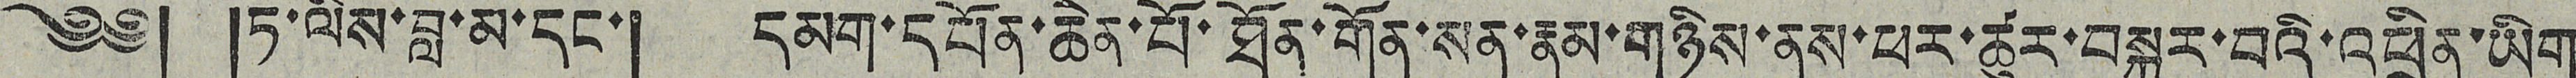༄༅། །ཏ་ལིས་བླ་མ་དང་། དམག་དཔོན་ཆེན་པོ་ཐོན་གོན་སན་རྣམ་གཉིས་ནས་ཕར་ཚུར་བསྐུར་བའི་འཕྲིན་ཡིག
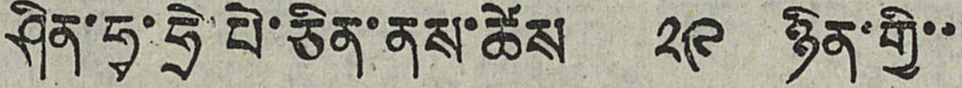ཤིན་ཧྭ་ཧྲེ་པེ་ཅིན་ནས་ཚེས ༢༩ ཉིན་གྱི་་
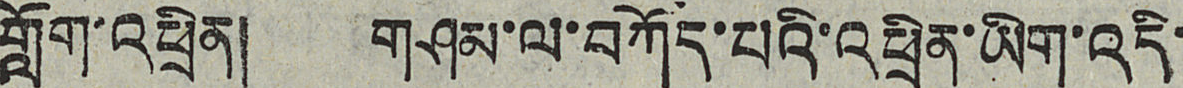གློག་འཕྲིན། གཤམ་ལ་བཀོད་པའི་འཕྲིན་ཡིག་འདི་
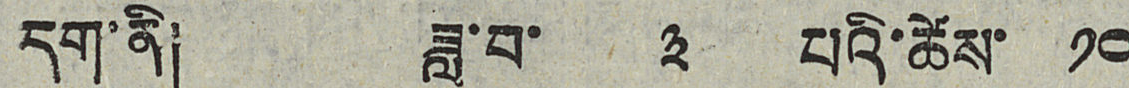དག་ནི། ཟླ་བ་ ༣ པའི་ཚེས་ ༡༠
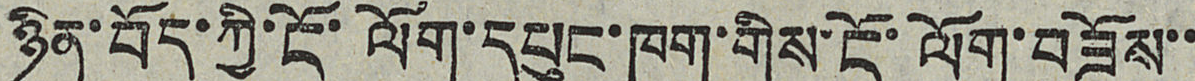ཉིན་བོད་ཀྱི་ལོག་དཔུང་ཁག་གིས་ངོ་ལོག་བཟོས་་
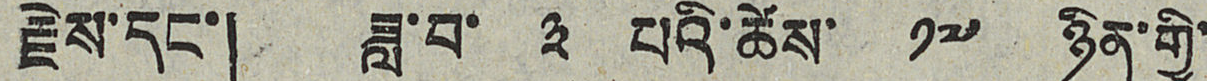རྗེས་དང་། ཟླ་བ་ ༣ པའི་ཚེས་ ༡༧ ཉིན་གྱི་
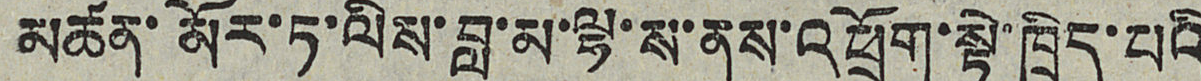མཚན་མོར་ཏ་ལིས་བླ་མ་ལྷ་ས་ནས་འཕྲོག་སྟེ་ཁྲིད་པའི
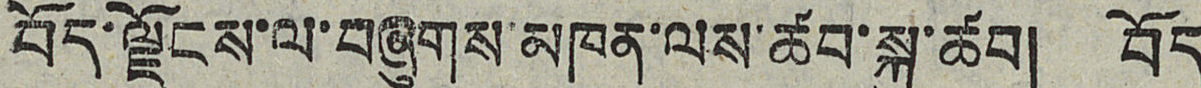བོད་ལྗོངས་ལ་བཞུགས་མཁན་ལས་ཚབ་སྐུ་ཚབ། བོད
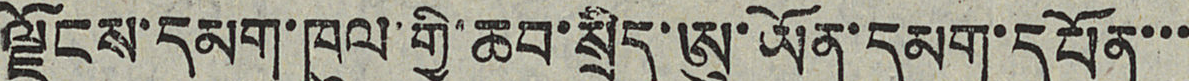ལྗོངས་དམག་ཁུལ་གྱི་ཆབ་སྲིད་ཨུ་ཡོན་དམག་དཔོན་་་
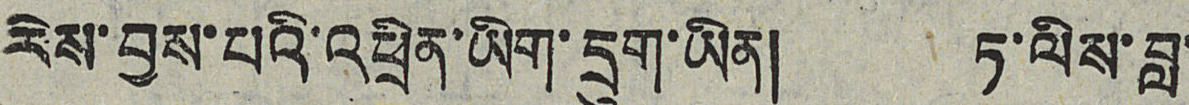རེས་བྱས་པའི་འཕྲིན་ཡིག་དྲུག་ཡིན། ཏ་ལིས་བླ་
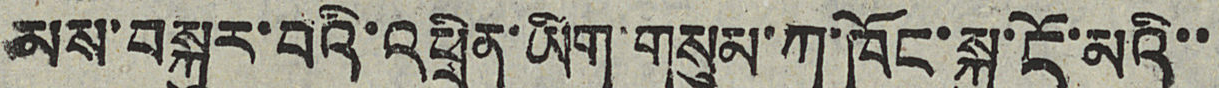མས་བསྐུར་བའི་འཕྲིན་ཡིག་གསུམ་ཀ་ཁོང་སྐུ་ངོ་མའི་་
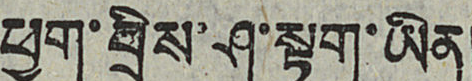ཕྱག་བྲིས་ཤ་སྟག་ཡིན།
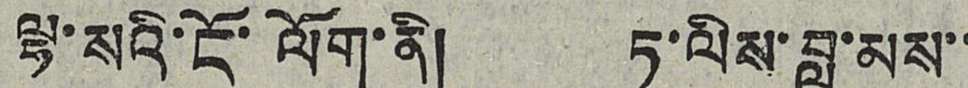ལྷ་སའི་ངོ་ལོག་ནི། ཏ་ལིས་བླ་མས་་
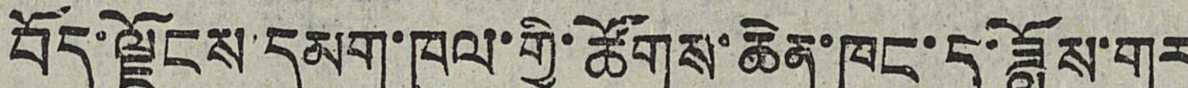བོད་ལྗོངས་དམག་ཁུལ་གྱི་ཚོགས་ཆེན་ཁང་དུ་ཟློས་གར
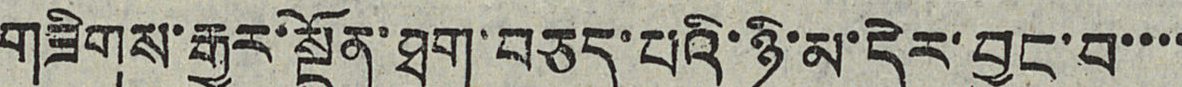གཟིགས་རྒྱུར་སྔོན་ཐག་བཅད་པའི་ཉི་མ་དེར་བྱུང་བ་་་་
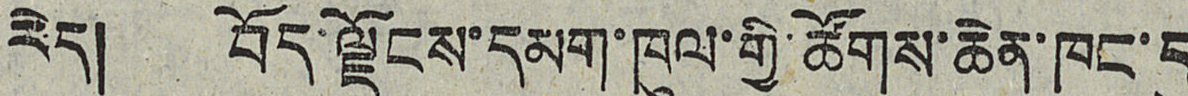རེད། བོད་ལྗོངས་དམག་ཁུལ་གྱི་ཚོགས་ཆེན་ཁང་དུ
